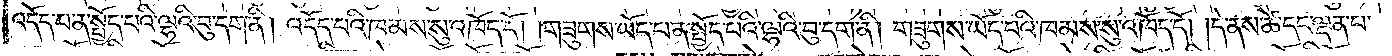འདོད་པ་ན་སྤྱོད་པའི་ལྷའི་བུ་དག་ནི། འདོད་པའི་ཁམས་སུ་འཁོད་དོ། །གཟུགས་ཡོད་པ་ན་སྤྱོད་པའི་ལྷའི་བུ་དག་ནི། གཟུགས་ཡོད་པའི་ཁམས་སུ་འཁོད་དོ། །དེ་ནས་ཚེ་དང་ལྡན་པ་
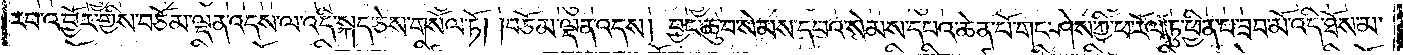རབ་འབྱོར་གྱིས་བཅོམ་ལྡན་འདས་ལ་འདི་སྐད་ཅེས་གསོལ་ཏོ། །བཅོམ་ལྡན་འདས། བྱང་ཆུབ་སེམས་དཔའ་སེམས་དཔའ་ཆེན་པོ་གང་ཤེས་རབ་ཀྱི་ཕ་རོལ་ཏུ་ཕྱིན་པ་ཟབ་མོ་འདི་ཐོས་མ་
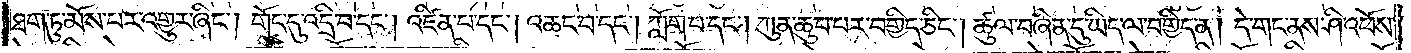ཐག་ཏུ་མོས་པར་འགྱུར་ཞིང༌། གོང་དུ་འདྲི་བ་དང༌། འཛིན་པ་དང༌། འཆང་བ་དང༌། ཀློག་པ་དང༌། ཀུན་ཆུབ་པར་བགྱིད་ཅིང༌། ཚུལ་བཞིན་དུ་ཡིད་ལ་བགྱིད་ན། དེ་གང་ནས་ཤི་འཕོས་
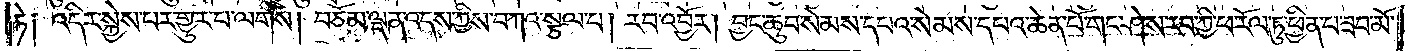ཏེ། འདིར་སྐྱེས་པར་གྱུར་པ་ལགས། བཅོམ་ལྡན་འདས་ཀྱིས་བཀའ་སྩལ་པ། རབ་འབྱོར། བྱང་ཆུབ་སེམས་དཔའ་སེམས་དཔའ་ཆེན་པོ་གང་ཤེས་རབ་ཀྱི་ཕ་རོལ་ཏུ་ཕྱིན་པ་ཟབ་མོ་
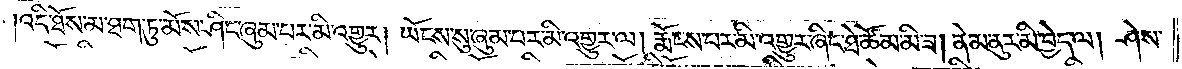འདི་ཐོས་མ་ཐག་ཏུ་མོས་ཤིང་ཞུམ་པར་མི་འགྱུར། ཡོངས་སུ་ཞུམ་པར་མི་འགྱུར་ལ། རྨོངས་པར་མི་འགྱུར་ཞིང་ཐེ་ཚོམ་མི་ཟ། ནེམ་ནུར་མི་བྱེད་ལ། ཤེས་
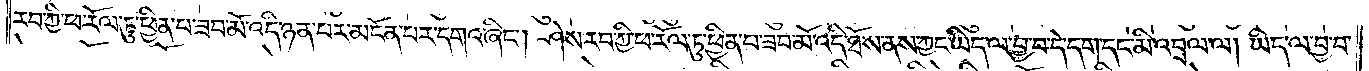རབ་ཀྱི་ཕ་རོལ་ཏུ་ཕྱིན་པ་ཟབ་མོ་འདི་ཉན་པར་མངོན་པར་དགའ་ཞིང༌། ཤེས་རབ་ཀྱི་ཕ་རོལ་ཏུ་ཕྱིན་པ་ཟབ་མོ་འདི་ཐོས་ནས་ཀྱང་ཡིད་ལ་བྱ་བ་དེ་དག་དང་མི་འབྲལ་ལ། ཡིད་ལ་བྱ་བ་
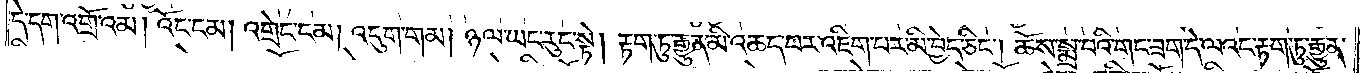དེ་དག་འགྲོ་འམ། འོང་ངམ། འགྲེང་ངམ། འདུག་གམ། ཉལ་ཡང་རུང་སྟེ། རྟག་ཏུ་རྒྱུན་མི་འཆད་པར་འཇིག་པར་མི་བྱེད་ཅིང༌། ཆོས་སྨྲ་བའི་གང་ཟག་དེ་ལའང་རྟག་ཏུ་རྒྱུན་
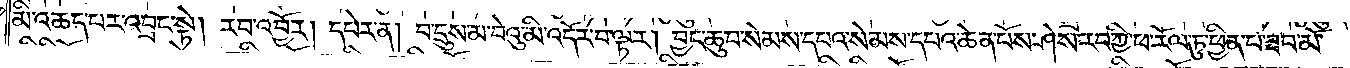མི་འཆད་པར་འབྲང་སྟེ། རབ་འབྱོར། དཔེར་ན། བ་དྲུས་མ་བེའུ་མི་འདོར་བ་ལྟར། བྱང་ཆུབ་སེམས་དཔའ་སེམས་དཔའ་ཆེན་པོས་ཤེས་རབ་ཀྱི་ཕ་རོལ་ཏུ་ཕྱིན་པ་ཟབ་མོ་
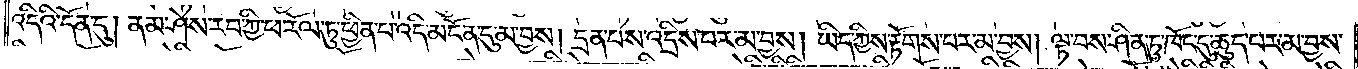འདིའི་དོན་དུ། ནམ་ཤེས་རབ་ཀྱི་ཕ་རོལ་ཏུ་ཕྱིན་པ་འདི་མངོན་དུ་མ་བྱས། དྲན་པས་འདྲིས་པར་མ་བྱས། ཡིད་ཀྱིས་རྟོགས་པར་མ་བྱས། ལྟ་བས་ཤིན་ཏུ་ཁོང་དུ་ཆུད་པར་མ་བྱས་
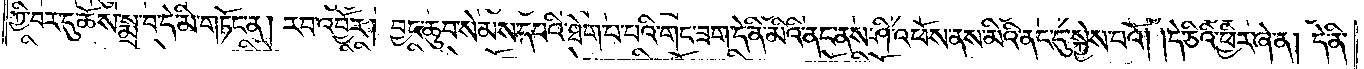ཀྱི་བར་དུ་ཆོས་སྨྲ་བ་དེ་མི་གཏོང་ན། རབ་འབྱོར། བྱང་ཆུབ་སེམས་དཔའ་ཐེག་པ་བའི་གང་ཟག་དེ་ནི་མིའི་ནང་ནས་ཤི་འཕོས་ནས་མིའི་ནང་དུ་སྐྱེས་པའོ། །དེ་ཅིའི་ཕྱིར་ཞེ་ན། དེ་ནི་
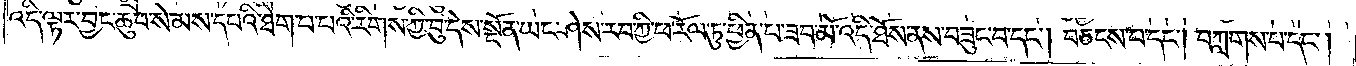འདི་ལྟར་བྱང་ཆུབ་སེམས་དཔའི་ཐེག་པ་པའི་རིགས་ཀྱི་བུ་དེས་སྔོན་ཡང་ཤེས་རབ་ཀྱི་ཕ་རོལ་ཏུ་ཕྱིན་པ་ཟབ་མོ་འདི་ཐོས་ནས་བཟུང་བ་དང༌། བཅངས་པ་དང༌། བཀླགས་པ་དང༌།
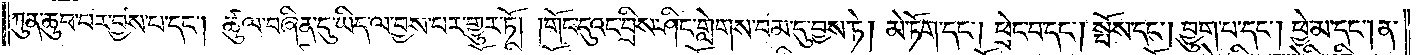ཀུན་ཆུབ་པར་བྱས་པ་དང༌། ཚུལ་བཞིན་དུ་ཡིད་ལ་བྱས་པར་གྱུར་ཏོ། །གོང་དུའང་བྲིས་ཤིང་གླེགས་བམ་དུ་བྱས་ཏེ། མེ་ཏོག་དང༌། ཕྲེང་བ་དང༌། སྤོས་དང༌། བྱུག་པ་དང༌། ཕྱེ་མ་དང༌། ན་
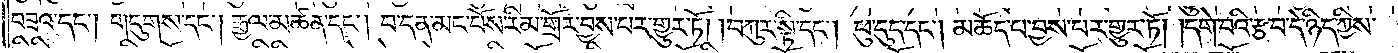བཟའ་དང༌། གདུགས་དང༌། རྒྱལ་མཚན་དང༌། བ་དན་མང་པོས་རིམ་གྲོར་བྱས་པར་གྱུར་ཏོ། །བཀུར་སྟི་དང༌། ཕུ་དུད་དང༌། མཆོད་པ་བྱས་པར་གྱུར་ཏོ། །དགེ་བའི་རྩ་བ་དེ་ཉིད་ཀྱིས་
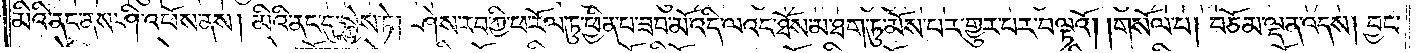མིའི་ནང་ནས་ཤི་འཕོས་ནས། མིའི་ནང་དུ་སྐྱེས་ཏེ། ཤེས་རབ་ཀྱི་ཕ་རོལ་ཏུ་ཕྱིན་པ་ཟབ་མོ་འདི་ལའང་ཐོས་མ་ཐག་ཏུ་མོས་པར་གྱུར་པར་བལྟའོ། །གསོལ་པ། བཅོམ་ལྡན་འདས། བྱང་
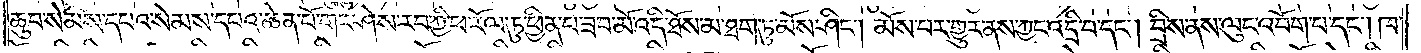ཆུབ་སེམས་དཔའ་སེམས་དཔའ་ཆེན་པོ་གང་ཤེས་རབ་ཀྱི་ཕ་རོལ་ཏུ་ཕྱིན་པ་ཟབ་མོ་འདི་ཐོས་མ་ཐག་ཏུ་མོས་ཤིང༌། མོས་པར་གྱུར་ནས་ཀྱང་འདྲི་བ་དང༌། བྲིས་ནས་ལུང་འབོག་པ་དང༌། ཁ་
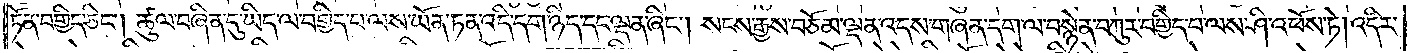ཏོན་བགྱིད་ཅིང༌། ཚུལ་བཞིན་དུ་ཡིད་ལ་བགྱིད་པ་ལས་ཡོན་ཏན་འདི་དག་ཉིད་དང་ལྡན་ཞིང༌། སངས་རྒྱས་བཅོམ་ལྡན་འདས་གཞན་དག་ལ་བསྙེན་བཀུར་བགྱིད་པ་ལས་ཤི་འཕོས་ཏེ། འདིར་
